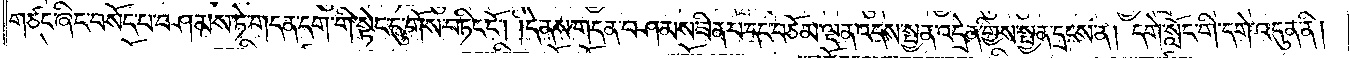གཙང་ཞིང་བསོད་པ་བཤམས་ཏེ་གདན་དག་གི་སྟེང་དུ་གོས་བཏིང་ངོ༌། །དེ་ནས་གདན་བཤམས་ཟིན་པ་དང་བཅོམ་ལྡན་འདས་སྤྱན་འདྲེན་གྱིས་སྤྱན་དྲངས་ན། དགེ་སློང་གི་དགེ་འདུན་ནི།
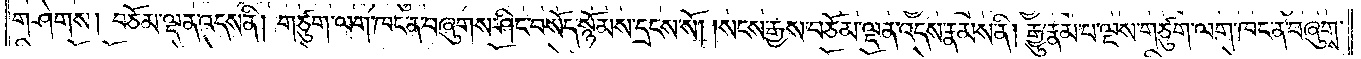གཤེགས། བཅོམ་ལྡན་འདས་ནི། གཙུག་ལག་ཁང་ན་བཞུགས་ཤིང་བསོད་སྙོམས་དྲངས་སོ། །སངས་རྒྱས་བཅོམ་ལྡན་འདས་རྣམས་ནི། རྒྱུ་རྣམ་པ་ལྔས་གཙུག་ལག་ཁང་ན་བཞུགས་
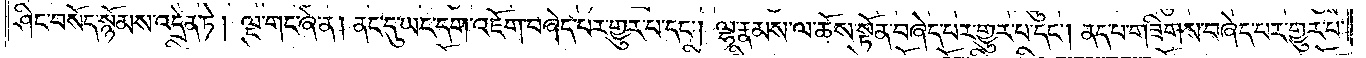ཤིང་བསོད་སྙོམས་འདྲེན་ཏེ། ལྔ་གང་ཞེ་ན། ནང་དུ་ཡང་དག་འཇོག་བཞེད་པར་གྱུར་པ་དང༌། ལྷ་རྣམས་ལ་ཆོས་སྟོན་བཞེད་པར་གྱུར་པ་དང༌། ནད་པ་གཟིགས་བཞེད་པར་གྱུར་པ་
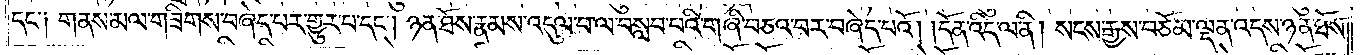དང༌། གནས་མལ་གཟིགས་བཞེད་པར་གྱུར་པ་དང༌། ཉན་ཐོས་རྣམས་འདུལ་བ་ལ་བསླབ་པའི་གཞི་བཅའ་བར་བཞེད་པའོ། །དོན་འདི་ལ་ནི། སངས་རྒྱས་བཅོམ་ལྡན་འདས་ཉན་ཐོས་
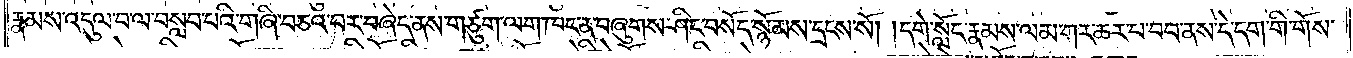རྣམས་འདུལ་བ་ལ་བསླབ་པའི་གཞི་བཅའ་བར་བཞེད་ནས་གཙུག་ལག་ཁང་ན་བཞུགས་ཤིང་བསོད་སྙོམས་དྲངས་སོ། །དགེ་སློང་རྣམས་ལམ་གར་ཆར་པ་བབ་ནས་དེ་དག་གི་གོས་
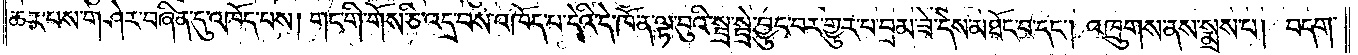ཆར་པས་གཤེར་བཞིན་དུ་འཁོད་པས། གང་གི་གོས་ཅི་འདྲ་བས་འཁོད་པ་དེའི་དེ་ཁོ་ན་ལྟ་བུའི་སྦྲ་སྦྲེ་བྱུང་བར་གྱུར་པ་བྲམ་ཟེ་དེས་མཐོང་བ་དང༌། འཁྲུགས་ནས་སྨྲས་པ། བདག་
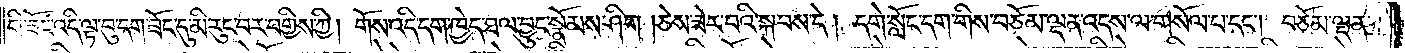གི་ཟང་འདི་ལྟ་བུ་དག་ཟོང་དུ་མི་རུང་བར་བགྱིས་ཀྱི། གོས་འདི་དག་ཁྱེད་ཐལ་བྱུང་སྣོམས་ཤིག །ཅེས་ཟེར་བའི་སྐབས་དེ། དགེ་སློང་དག་གིས་བཅོམ་ལྡན་འདས་ལ་གསོལ་པ་དང༌། བཅོམ་ལྡན་
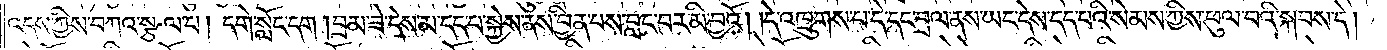འདས་ཀྱིས་བཀའ་སྩལ་པ། དགེ་སློང་དག །བྲམ་ཟེ་དེས་མ་དད་བ་སྐྱེས་ནས་བྱིན་པས་བླང་བར་མི་བྱའོ། །དེ་འཁྲུགས་པ་དེ་དང་བྲལ་ནས་ཡང་དེས་དད་པའི་སེམས་ཀྱིས་ཕུལ་བའི་སྐབས་དེ།
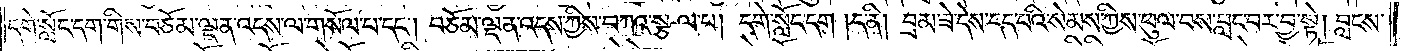དགེ་སློང་དག་གིས་བཅོམ་ལྡན་འདས་ལ་གསོལ་པ་དང༌། བཅོམ་ལྡན་འདས་ཀྱིས་བཀའ་སྩལ་པ། དགེ་སློང་དག །ད་ནི། བྲམ་ཟེ་དེས་དད་པའི་སེམས་ཀྱིས་ཕུལ་བས་བླང་བར་བྱ་སྟེ། བླངས་
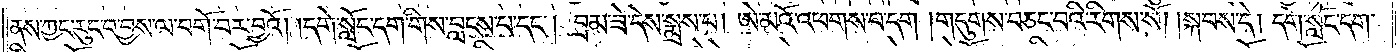ནས་ཀྱང་རུང་བ་བྱས་ལ་བགོ་བར་བྱའོ། །དགེ་སློང་དག་གིས་བླངས་པ་དང༌། བྲམ་ཟེ་དེས་སྨྲས་པ། ཨེ་མའོ་འཕགས་པ་དག །གདུགས་བཅང་པའི་རིགས་སོ། །སྐབས་དེ། དགེ་སློང་དག་
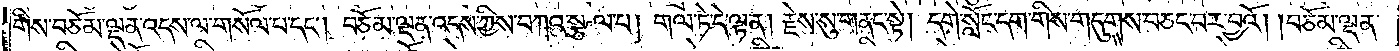གིས་བཅོམ་ལྡན་འདས་ལ་གསོལ་པ་དང༌། བཅོམ་ལྡན་འདས་ཀྱིས་བཀའ་སྩལ་པ། གལ་ཏེ་དེ་ལྟ་ན། རྗེས་སུ་གནང་སྟེ། དགེ་སློང་དག་གིས་གདུགས་བཅང་བར་བྱའོ། །བཅོམ་ལྡན་
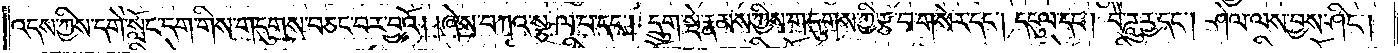འདས་ཀྱིས་དགེ་སློང་དག་གིས་གདུགས་བཅང་པར་བྱའོ། །ཞེས་བཀའ་སྩལ་པ་དང༌། དྲུག་སྡེ་རྣམས་ཀྱིས་གདུགས་ཀྱི་རྩ་བ་གསེར་དང༌། དངུལ་དང༌། བཻ་ཌཱུཪྻ་དང༌། ཤེལ་ལས་བྱས་ཤིང༌།
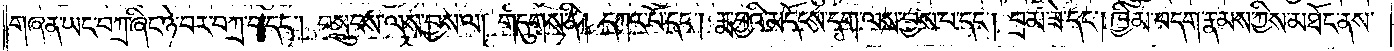གཞན་ཡང་བཀྲ་ཞིང་ཉེ་བར་བཀྲ་བ་དང༌། བསྲུབས་ལས་བྱས་ལ། གདུགས་ནི། དཀར་པོ་དང༌། རྨ་བྱའི་མདོངས་དག་ལས་བྱས་པ་དང༌། བྲམ་ཟེ་དང༌། ཁྱིམ་བདག་རྣམས་ཀྱིས་མཐོང་ནས་
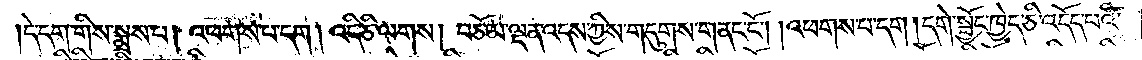།དེ་དག་གིས་སྨྲས་པ། འཕགས་པ་དག། འདི་ཅི་ལགས། བཅོམ་ལྡན་འདས་ཀྱིས་གདུགས་གནང་ངོ༌། །འཕགས་པ་དག། དགེ་སྦྱོང་ཁྱེད་ཅི་འདོད་པའི་
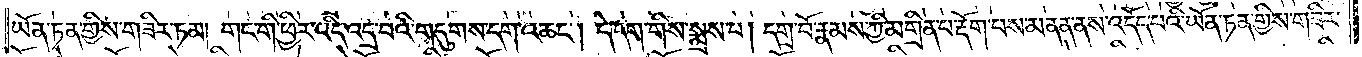ཡོན་ཏན་གྱིས་གཟིར་ཏམ། གང་གི་ཕྱིར་འདི་འདྲ་བའི་གདུགས་དག་འཆང༌། དེ་དག་གིས་སྨྲས་པ། དགྲ་བོ་རྣམས་ཀྱི་མགྲིན་པ་རྡོག་བས་མནན་ནས་འདོད་པའི་ཡོན་ཏན་གྱིས་གཟིར་
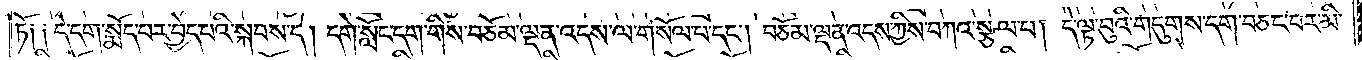ཏོ༑ ༑ དེ་དག་སྨོད་པར་བྱེད་པའི་སྐབས་དེ། དགེ་སློང་དག་གིས་བཅོམ་ལྡན་འདས་ལ་གསོལ་པ་དང༌། བཅོམ་ལྡན་འདས་ཀྱིས་བཀའ་སྩལ་པ། དེ་ལྟ་བུའི་གདུགས་དག་བཅང་བར་མི་
